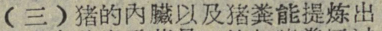（三）猪的內臟以及猪粪能提炼出
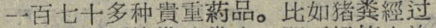一百七十多种貴重葯品。比如猪粪經过
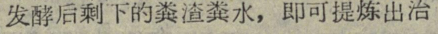发酵后剩下的粪渣粪水，即可提炼出治
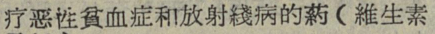疗恶性貧血症和放射綫病的葯（維生素
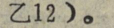乙12)。
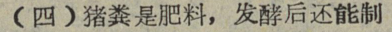（四）猪粪是肥料，发酵后还能制
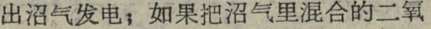出沼气发电；如果把沼气里混合的二氧
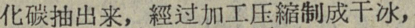化碳抽出来，經过加工压縮制成干冰，
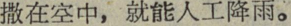撒在空中，就能人工降雨。
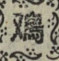鳮
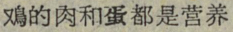鳮的肉和蛋都是营养
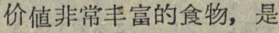价值非常丰富的食物，是
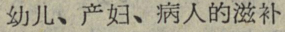幼儿、产妇、病人的滋补
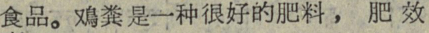食品。鳮粪是一种很好的肥料，肥效
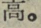高。
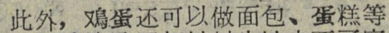此外，鳮蛋还可以做面包、蛋糕等
